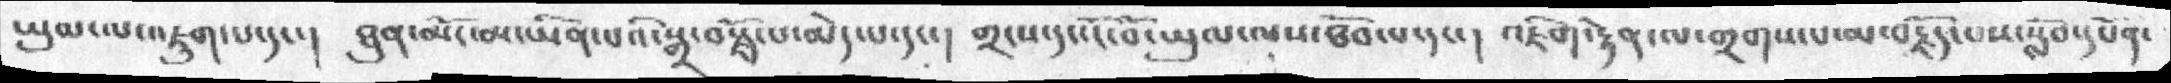ཡུམ་ལ་འཇུག་པ་དང་།  ཐུན་མོང་མ་ཡིན་པའི་སྒྲ་བརྗོད་པ་མེད་པ་དང་།  གྲངས་དང་ངོ་བོ་ཡུལ་ལས་ཐོབ་པ་དང་། འཇིག་རྟེན་ལ་གྲགས་པ་མ་བརྗོད་པས་སློབ་དཔོན་
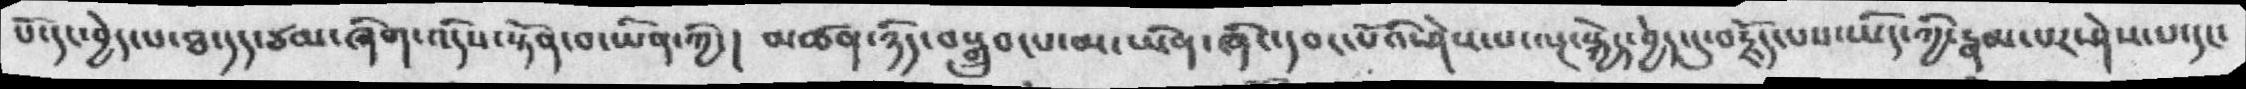པོ་དང་བྱེད་པ་ཐ་དད་ཙམ་ཞིག་འདིས་སྟོན་བ་ཡིན་ཀྱི་། མཚན་ཉིད་བསྒྲུབ་པ་མ་ཡིན་ཞིང་དབང་པོའི་ཤེས་པ་ལྔ་སྐྱེད་བྱེད་དུ་བརྗོད་པས་ཡིད་ཀྱི་རྣམ་ཤེས་པ་དང་
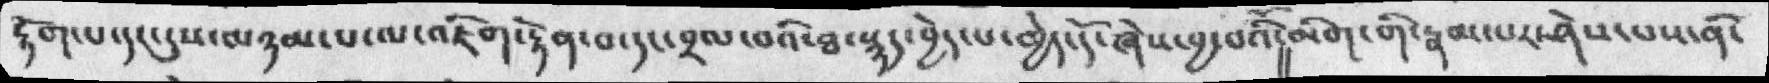རྟོག་པ་དང་དུས་མཉམ་པ་ལ་འཇིག་རྟེན་བ་དང་བྲལ་བའི་ཐ་སྙད་བྱེད་པ་མྱེད་དོ་ཞེས་བྱ་བའི་མིག་གི་རྣམ་པར་ཤེས་པས་ནི་
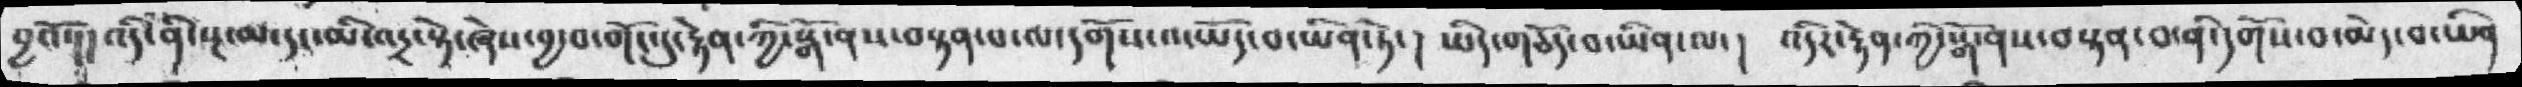བྱའོ་།།འདི་ནི་སྔ་མ་དང་མི་འདྲ་སྟེ་ཞེས་བྱ་བ་གོང་དུ་རྟེན་ཀྱི་སྒོ་ནས་བསྟན་པ་ལ་དགོས་པ་ཡོད་བ་ཡིན་ཏེ་། ཡིད་གཅོད་བ་ཡིན་ལ་། འདིར་རྟེན་ཀྱི་སྒོ་ནས་བསྟན་བ་ནི་དགོས་བ་མེད་བ་ཡིན
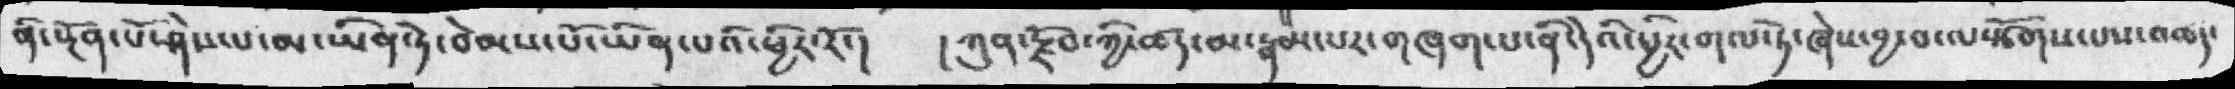ནི་སྔོན་པོ་ཤེས་པ་མ་ཡིན་ཏེ་བེམས་པོ་ཡིན་པའི་ཕྱིར་རོ་།  །ཀུན་རྫོབ་ཀྱི་ཚད་མ་རྣམ་པར་གཞག་པ་ནི་དེའི་ཕྱིར་གལ་ཏེ་ཞེས་བྱ་བ་ལསྩོགས་པས་འཆད་
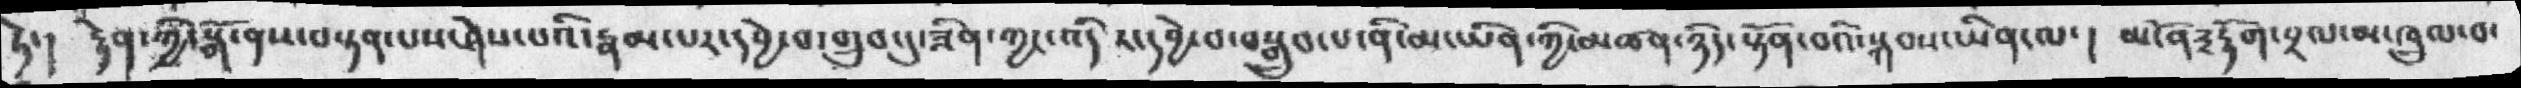ཏེ་། རྟེན་ཀྱི་སྒོ་ནས་བཏགས་པས་ཤེས་པའི་རྣམ་པར་དབྱེ་བ་གྲུབ་དུ་ཟིན་ཀྱང་འདིར་དབྱེ་བ་བསྒྲུབ་པ་ནི་མ་ཡིན་ཀྱི་མཚན་ཉིད་སྟོན་བའི་སྐབས་ཡིན་ལ་།  མངོན༣རྟོག་བྲལ་མ་ཁྲུལ་བ་
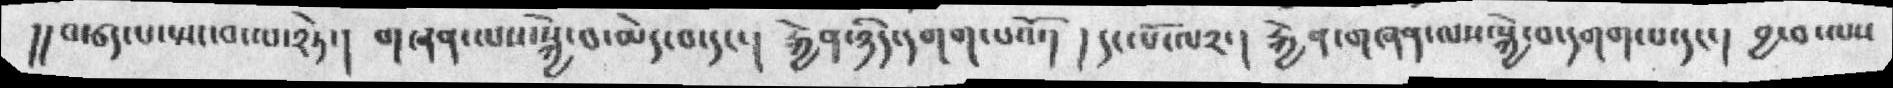།།བརྩད་པ་སྤང་བ་ལ་༢ཏེ་། གཞན་ལས་སྐྱེ་བ་མེད་པ་དང་།. རྐྱེན་ཉིད་དགག་པའོ་།  །དང་པོ་ལ༢་།  རྐྱེན་གཞན་ལས་སྐྱེ་བ་དགག་པ་དང་།  བྱ་བ་ལས
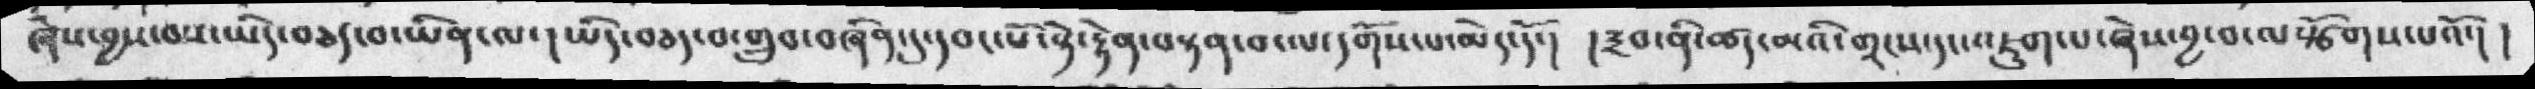ཞེས་བྱས་བས་ཡིད་བཅད་བ་ཡིན་ལ་། ཡིད་བཅད་པ་གྲུབ་བཞིན་དུ་དབང་པོ་སྟེ་རྟེན་བསྟན་པ་ལ་དགོས་པ་མེད་དོ་།  ། ༣པ་ནི་ཚད་མའི་གྲངས་དང་འཇུག་པ་ཞེས་བྱ་ལསྩོགས་པའོ་ །
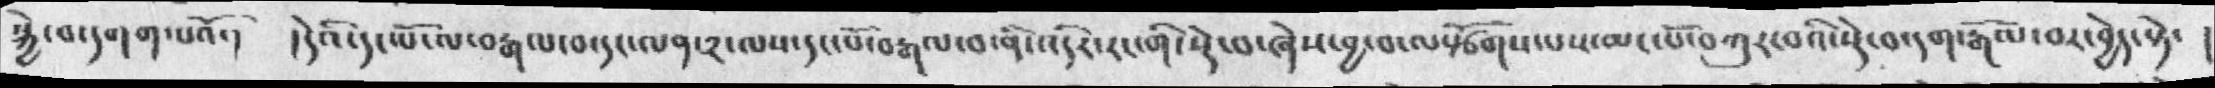སྐྱེ་བ་དགག་པའོ་།  །དེའི་དང་པོ་ལ་བརྒལ་བ་དང་ལན་༢་ལས་དང་པོ་བརྒལ་བ་ནི་འདིར་རང་གི་སྡེ་བ་ཞེས་བྱ་བ་ལསྩོགས་པ་ལ་མང་པོ་བཀུར་བའི་སྡེ་བ་དདག་རྒོལ་བར་བྱེད་སྟེ་
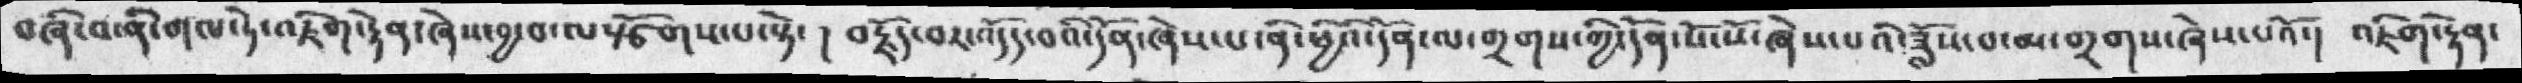བཞི་བ་ནི་གལ་ཏེ་འཇིག་རྟེན་ཞེས་བྱ་བ་ལསྩོགས་པ་སྟེ་ ། བརྗོད་བར་འདོད་བའི་དོན་ཞེས་པ་ནི་ཕྱིའི་དོན་ལ་གྲགས་གྱི་དོན་སོ་སོ་ཞེས་པའི་ཟློས་པ་མ་གྲགས་ཞེས་པའོ་།  འཇིག་རྟེན་
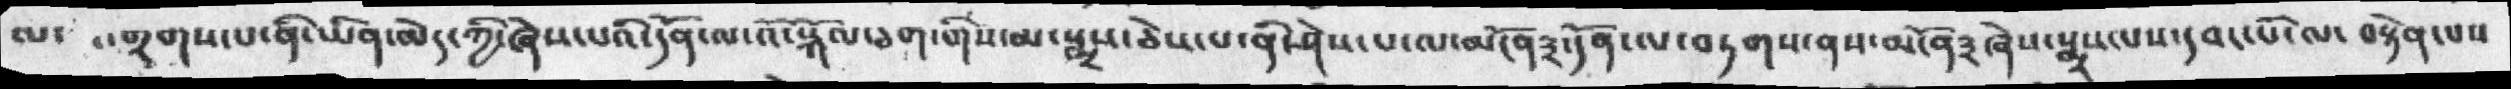ལ་  བགྲགས་པ་ནི་ཡིན་མེད་ཀྱི་ཞེས་པའི་དོན་ལ་འོ་སྐོལ་ཅག་གིས་མ་སྨྲས་ཅེས་པ་ནི་ཤེས་པ་ལ་མངོན༣་དོན་ལ་བཏགས་ནས་མངོན༣ཞེས་སྨྲས་པས་དབང་པོ་ལ་ བསྟེན་པས་
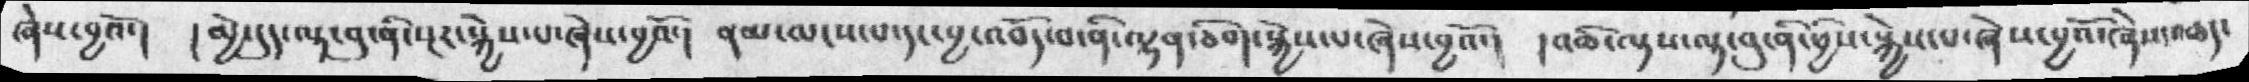ཞེས་བྱའོ་།  ། མྱེ་དུད་ལྟ་བུ་ནི་སྔར་སྐྱེས་པ་ཞེས་བྱའོ་།  ནམལངས་པ་དང་བྱ་འབོད་པ་ནི་ལྷན་ཅིག་སྐྱེས་པ་ཞེས་བྱའོ་།  །འཆི་ལྟས་ལྟ་བུ་ནི་ཕྱིས་སྐྱེས་པ་ཞེས་བྱའོ་ཞེས་འཆད་
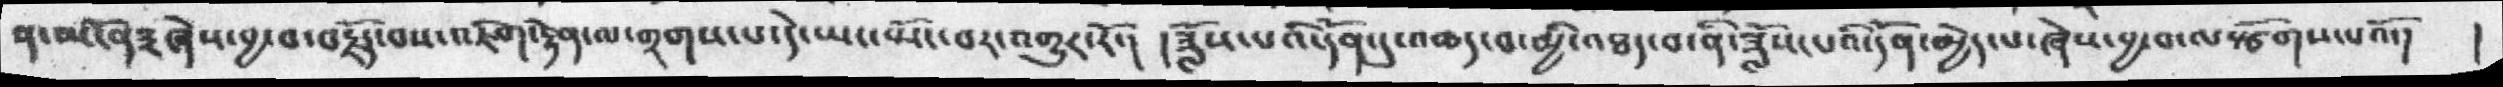ན་མངོན་༣ཞེས་བྱ་བ་བརྗོད་བས་འཇིག་རྟེན་ལ་གྲགས་པ་དེ་ཡང་སྤོང་བར་འགྱུར་རོ་། །ཟློས་པའི་དོན་དུ་འཆད་བ་མྱི་འཐད་བ་ནི་ཟློས་པའི་དོན་མྱེད་པ་ཞེས་བྱ་བ་ལསྩོགས་པའོ་།  །
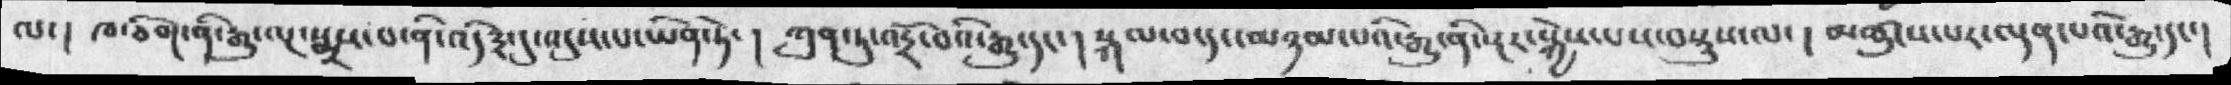ལ་།  ཁ་ཅིག་ནི་རྒྱུ་ལྔ་སྨྲས་པ་ནི་འདི༣་དུའདུས་པ་ཡིན་ཏེ་ ། ཀུན་ཏུ་འདྲོ་བའི་རྒྱུ་དང་ ། སྐལ་བ་དང་མཉམ་པའི་རྒྱུ་ནི་སྔར་སྐྱེས་པས་བསྡུས་ལ་ ། མཚུངས་པར་ལྡན་པའི་རྒྱུ་དང་།
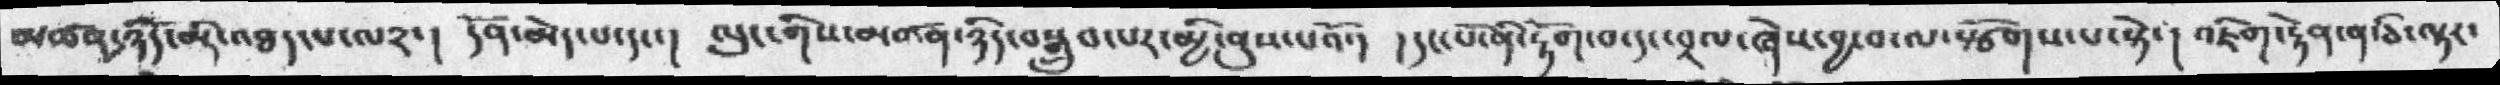མཚན་ཉིད་མི་འཐད་པ་ལ༢་།  དོན་མེད་པ་དང་། ལུང་གིས་མཚན་ཉིད་བསྒྲུབ་པར་མྱི་ནུས་པའོ་།  །དང་པོ་ནི་རྟོག་བ་དང་བྲལ་ཞེས་བྱ་བ་ལ་སྩོགས་པ་སྟེ་། འཇིག་རྟེན་ན་ཅི་ལྟར་
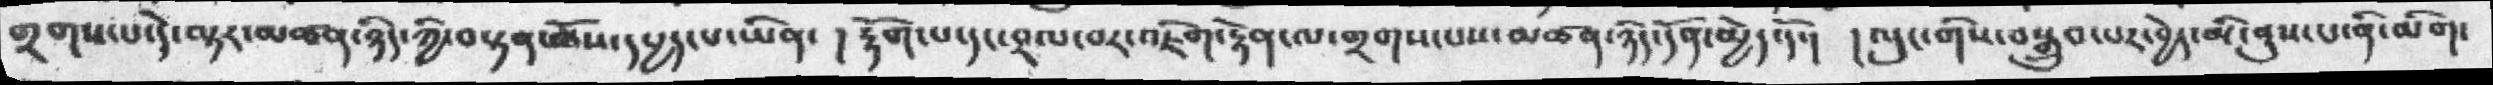གྲགས་པ་དེ་ལྟར་མཚན་ཉིད་ཀྱི་བསྟན་ཆོས་དཔྱད་པ་ཡིན་།  རྟོག་པ་དང་བྲལ་བར་འཇིག་རྟེན་ལ་གྲགས་པས་མཚན་ཉིད་དོན་མྱེ་དདོ་། །ལུང་གིས་བསྒྲུབ་པར་བྱེད་མི་ནུས་པ་ནི་མིག་
